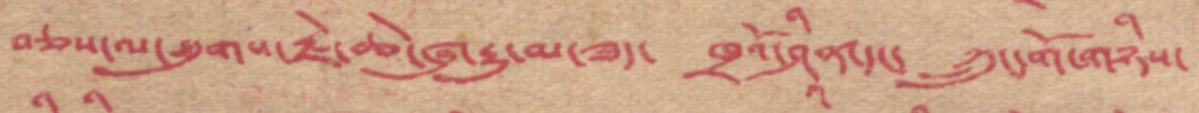བཅས་ལ་ཐུགས་རྗེ་ཆེ་རྒྱུ་མ་ཟད་ ཁྲའོ་ཤཱིན་དང་ ཀྲུང་གོ་གཉིས་
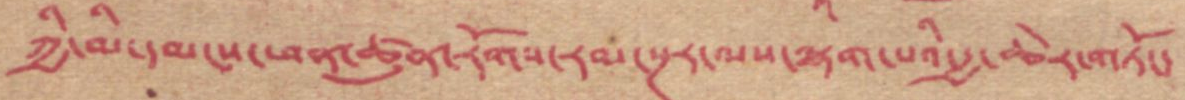ཀྱི་མི་དམངས་ཕན་ཚུན་རོགས་རམ་སྔར་ལས་ལྷག་པའི་རྒྱ་ཆེར་གཏོང་
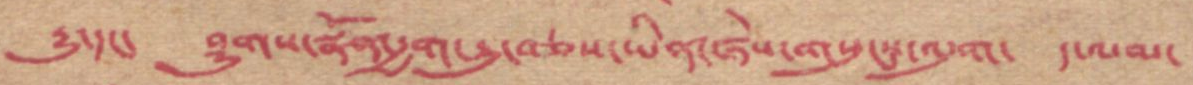རྒྱུ་དང་ ཤུགས་སྣོན་རྒྱག་རྒྱུ་བཅས་ཡིན་ཞེས་གསུངས་ལུག ད་ལམ་
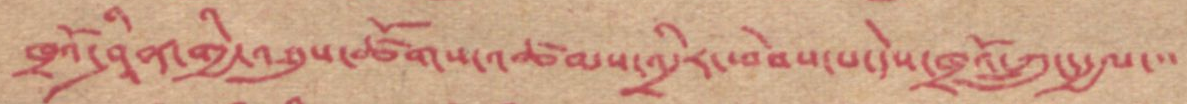ཁྲའོ་ཤཱིན་གྱི་འཐུས་ཚོགས་འཚམས་འདྲིར་ཕེབས་པ་དེས་ཁྲའོ་ཀྲུང་རྒྱལ་་་
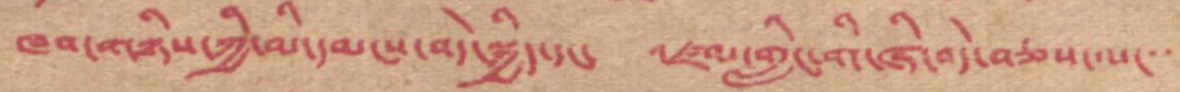ཁབ་གཉིས་ཀྱི་མི་དམངས་བདེ་སྐྱིད་དང་ འཛམ་གླིང་གི་ཞི་བདེ་བཅས་ལ་་་
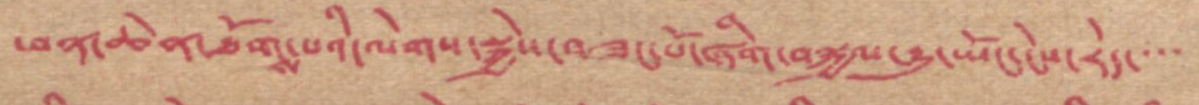ཕན་ཆེན་ཐོགས་པའི་ལེགས་སྐྱེས་བཟང་པོ་ཞིག་བསྐྱལ་རྒྱུ་ཡིང་ངེས་རེད་་་་
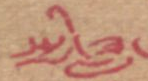སྤྱི་ཟླ་
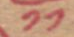༡༡
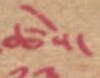ཚེས་
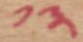༡༣
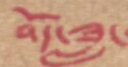བོད་ཟླ་
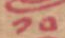༡༠
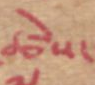ཚེས་
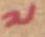༧
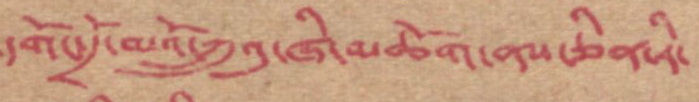དགོང་དྲོ་མའོ་ཀྲུའུ་ཞི་མཆོག་ནས་ཅིན་རི་
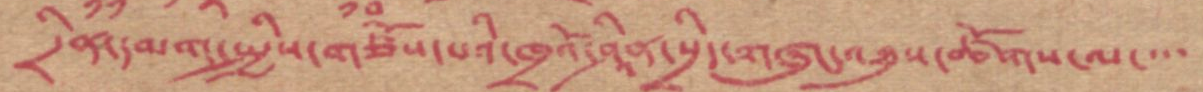དྲིན་དམག་སྤྱིས་གཅོས་པའི་ཁྲའོ་ཤཱིན་སྲིད་གཞུང་འཐུས་ཚོགས་ལ་་་་
